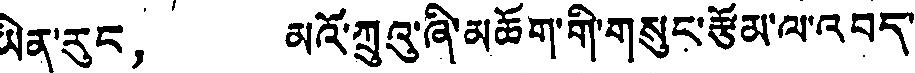ཡིན་རུང， མའོ་ཀྲུའུ་ཞི་མཆོག་གི་གསུང་རྩོམ་ལ་འབད་
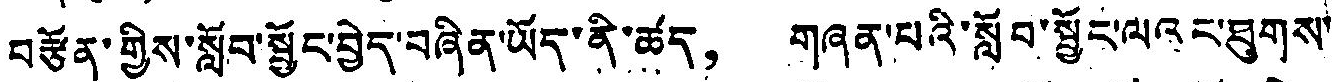བརྩོན་གྱིས་སློབ་སྦྱོང་བྱེད་བཞིན་ཡོད་ནི་ཚད， གཞན་པའི་སློབ་སྦྱོང་ལའང་ཐུགས
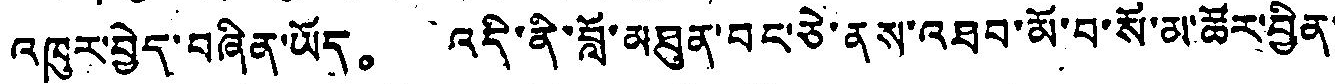འཁུར་བྱེད་བཞིན་ཡོད。 འདི་ནི་བློ་མཐུན་བང་ཅེ་ནས་འཐབ་མོ་བ་སོ་མ་ཚོར་བྱིན་
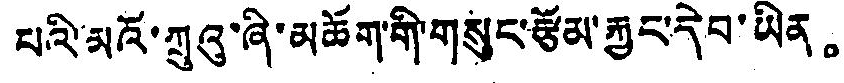པའི་མའོ་ཀྲུའུ་ཞི་མཆོག་གི་གསུང་རྩོམ་རྐྱང་དེབ་ཡིན。
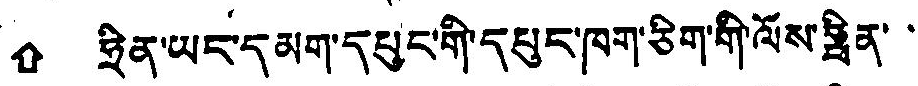⇧ ཧྲིན་ཡང་དམག་དཔུང་གི་དཔུང་ཁག་ཅིག་གི་ལོས་ཧྥིན་་
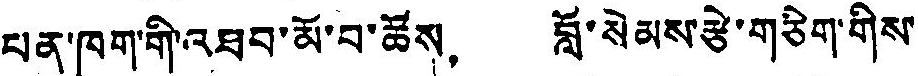པན་ཁག་གི་འཐབ་མོ་བ་ཚོས， བློ་སེམས་རྩེ་གཅིག་གིས་
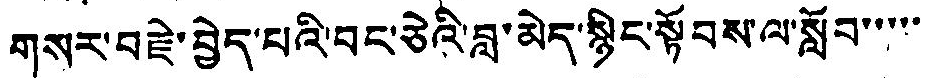གསར་བརྗེ་བྱེད་པའི་བང་ཅེའི་བླ་མེད་སྙིང་སྟོབས་ལ་སློབ་་་་་
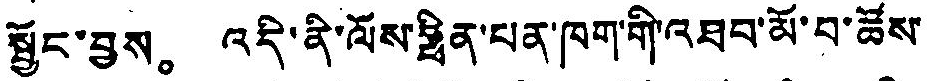སྦྱོང་བྱས。 འདི་ནི་ལོས་ཧྥིན་པན་ཁག་གི་འཐབ་མོ་བ་ཚོས་
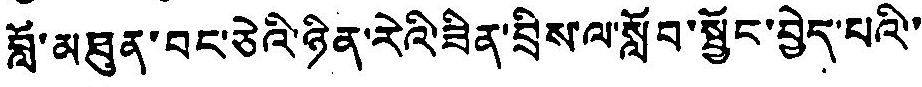བློ་མཐུན་བང་ཅེའི་ཉིན་རེའི་ཟིན་བྲིས་ལ་སློབ་སྦྱོང་བྱེད་པའི་་
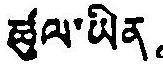ཚུལ་ཡིན。
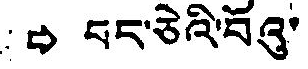⇨ བང་ཅེའི་བོའུ་
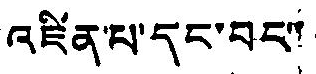འཛིན་པ་དང་བང་
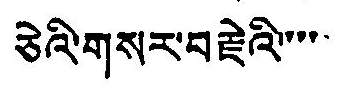ཅེའི་གསར་བརྗེའི་་་་
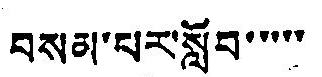བསམ་པར་སློབ་་་་་
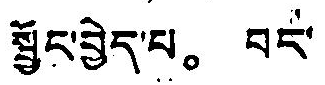སྦྱོང་བྱེད་པ。 བང་
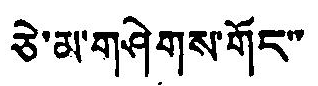ཅེ་མ་གཤེགས་གོང་་
